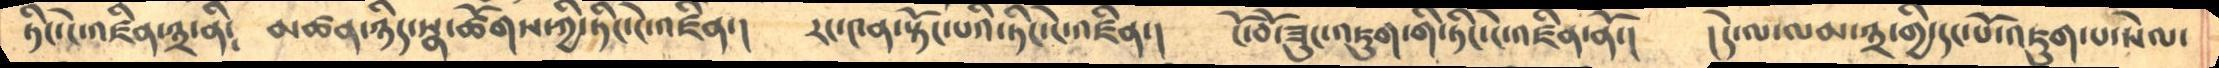ཏིང་ངེ་འཛིན་༣་ནི༴   མཚན་ཉིད་སྣ་ཚོགས་ཀྱི་ཏིང་ངེ་འཛིན་།    རང་༤ན་སྟོང་པའི་ཏིང་ངེ་འཛིན་།     ངོ་བོ་ཟུང་འཇུག་གི་ཏིང་ངེ་འཛིན་ནོ་།   །དེ་ལ་ལམ་༣་གྱི་དང་པོ་འཇུག་པ་སེལ་
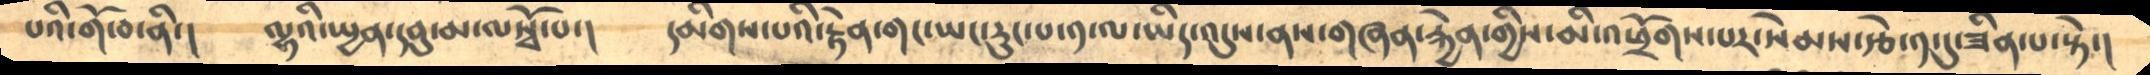པའི་གོ་བ་ནི་།    ལྷའི་སྤྱན་དབུ་མ་ལསྭོ་པ་།   དམིགས་པའི་རྟེན་གང་ཡང་རུང་པ་༡་ལ་ཡིད་འདུས་ནས་གཞན་རྐྱེན་གྱིས་མི་འཕྲོགས་པར་སེམས་རྩེ་༡་དུ་ཟིན་པ་སྟེ་།
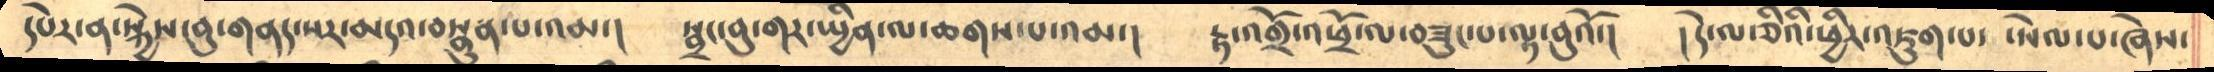དཔེར་ན་སྐྱེས་བུ་གནད་སར་མདའ་བསྣུན་པ་འམ་།   སྦྲང་བུ་གར་སྤྱིན་ལ་ཆགས་པའམ་།   རྟ་འགྲོ་འཕྲོ་ལ་བཟུང་པ་ལྟ་བུའོ་།    །དེ་ལ་ཅིའི་ཕྱིར་འཇུག་པ་  ་སེལ་པ་ཞེས་
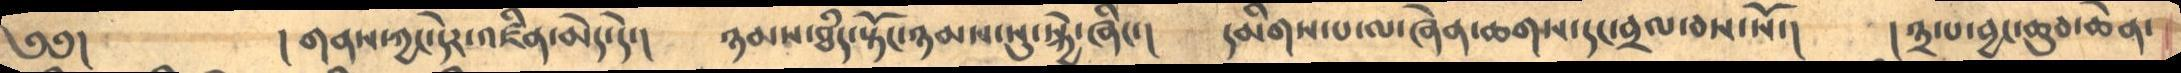༄༅།       ། གནས་ཀྱང་དེར་འཛིན་མེད་དེ་།    ཉམས་ཐཾད་སྟོང་ཉམས་སུ་སྐྱེ་ཞིང་།   དམིགས་པ་ལ་ཞེན་ཆགས་དང་བྲལ་བས་སོ་།   ། ༣་པ་བྱང་ཆུབ་ཆེན་
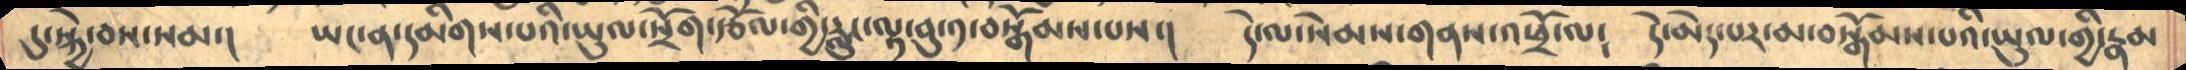དུ་སྐྱེ་བས་སམ་།   ཡང་ན་དམིགས་པའི་ཡུལ་སྲོག་རྩོལ་གྱི་རླུང་ལྟ་བུ་༡་བསྒོམས་པས་།    དེ་ལ་སེམས་གནས་འཕྲོ་ལ༴   དེ་མེད་པར་མ་བསྒོམས་པའི་ཡུལ་གྱི་རྣམ
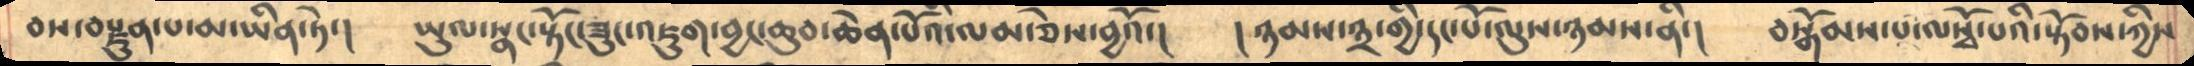བས་བརྫུན་པ་མ་ཡིན་ཏེ་།    ཡུལ་སྣང་སྟོང་ཟུང་འཇུག་བྱང་ཆུབ་ཆེན་པོའི་ལམ་ཅེས་བྱའོ་།     །ཉམས་༣་གྱི་དང་པོ་ལུས་ཉམས་ནི་།   བསྒོམས་པ་ལསྭོ་པའི་སྟོབས་ཀྱིས
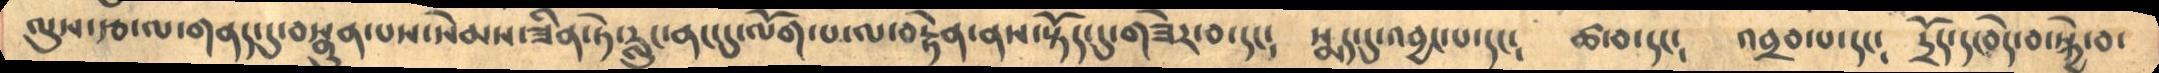ལུས་རྩ་ལ་གནད་དུ་བསྣུན་པས་སེམས་ཟིན་ཏེ་རླུང་ནང་དུ་ལོག་པ་ལ་བརྟེན་ནས་སྟོད་དུ་གཟེར་བ་དང༴    སྨད་དུ་འབྱང་པ་དང༴    ཚ་བ་དང༴    འབྲབ་པ་དང༴    དྲོད་དང་བདེ་བ་སྐྱེ་བ་
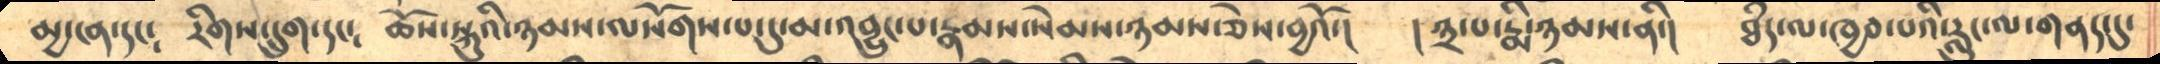མྱ་ངན་དང༴   རིགས་དྲུག་དང༴     ཆོས་སྐུའི་ཉམས་ལསོགས་པ་དུ་མ་འབྱུང་པ་རྣམས་སེམས་ཉམས་ཅེས་བྱའོ་།   ། ༣་པ་རྨི་ཉམས་ནི་།    ཐཾད་ལ་ཁྱབ་པའི་རླུང་ལ་གནད་དུ་
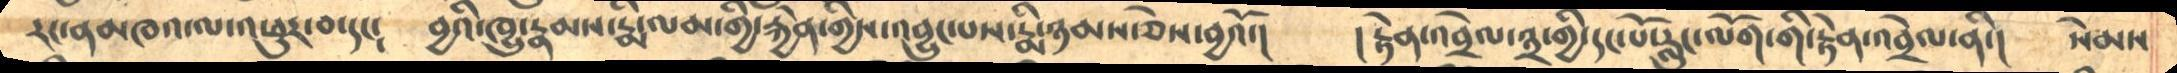རང་ནམཁའ་ལ་འཕུར་བ་དང༴   བྱའི་ཁྱུ་རྣམས་རྨི་ལམ་གྱི་རྐྱེན་གྱིས་འབྱུང་བས་རྨི་ཉམས་ཅེས་བྱའོ་།   །རྟེན་འབྲེལ་༣་གྱི་དང་པོ་རླུང་ལོག་གི་རྟེན་འབྲེལ་ནི་།   སེམས
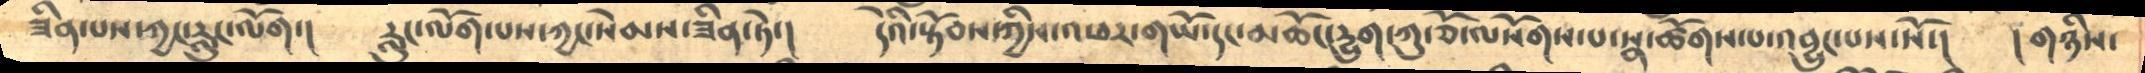ཟིན་པས་ཀྱང་རླུང་ལོག་།   རླུང་ལོག་པས་ཀྱང་སེམས་ཟིན་ཏེ་།    དེའི་སྟོབས་ཀྱིས་འཕར་གཡོ་དང་མཆོང་དྱུག་ཀུ་ཅོ་ལསོགས་པ་སྣ་ཚོགས་པ་འབྱུང་པས་སོ་།    །གཉིས་
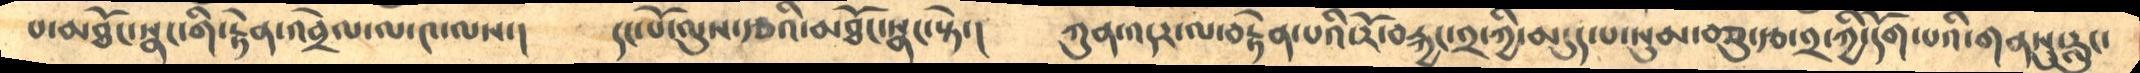བ་མཐོང་སྣང་གི་རྟེན་འབྲེལ་ལ་༤་ལས་།      དང་པོ་ལུས་རྩའི་མཐོང་སྣང་སྟེ་།      ཀུན་འདར་ལ་བརྟེན་པའི་རོ་བརྐྱང་༢་ཀྱི་མདུད་པ་སུམ་བཅུ་རྩ་༢་ཀྱི་དོག་པའི་གནསུ་རླུང་
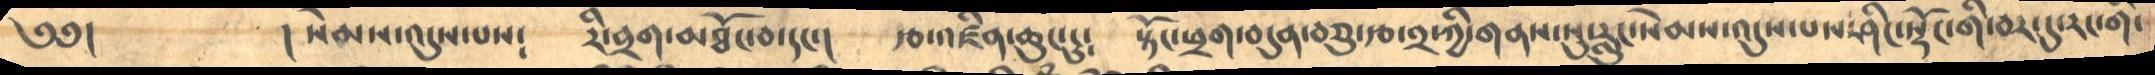༄༅།       ། སེམས་འདུས་པས༴     རི་བྲག་མཐོང་བ་དང་།      རྩ་འཛིན་ཆུང་ངུ༴      སྟོང་ཕྲག་བདུན་བཅུ་་རྩ་༢་ཀྱི་གནས་སུ་རླུང་སེམས་འདུས་པས་ཤིང་སྡོང་གི་བར་དུ་རང་གི་
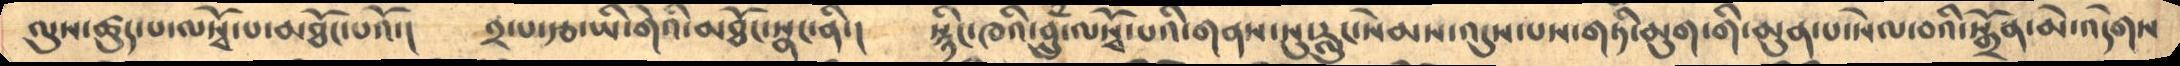ལུས་ཚུད་པ་ལསྭོ་པ་མཐོང་པའོ་།    ༢་པ་རྩ་ཡི་གེའི་མཐོང་སྣང་ནི་།   སྙིང་ཁའི་བླུཾ་ལསྭོ་པའི་གནས་སུ་རླུང་སེམས་འདུས་པས་གཏི་མུག་གི་མུན་པ་སེལ་བའི་སྐྲོན་མེ་འདེགས
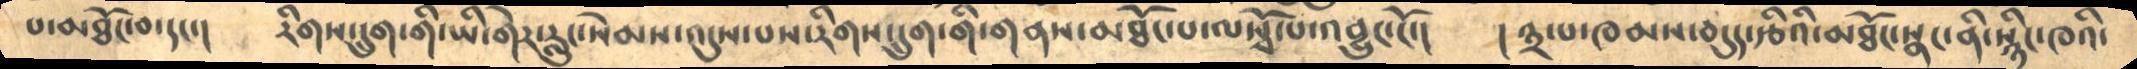པ་མཐོང་བ་དང་།      རིགས་དྲུག་གི་ཡི་གེར་རླུང་སེམས་འདུས་པས་རིགས་དྲུག་གི་གནས་མཐོང་པ་ལསྭོ་པ་འབྱུང་ངོ་།    ། ༣་པ་ཁམས་བདུད་རྩིའི་མཐོང་སྣང་ནི་སྙིང་ཁའི་
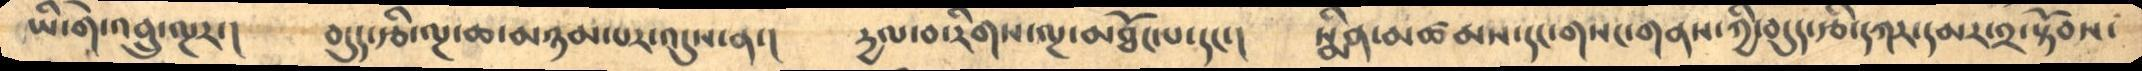ཡི་གེ་འབྲུ་ལྔར་།     བདུད་རྩི་ལྔ་ཆ་མཉམ་པར་འདུས་ན་།    དྱལ་བ་རིགས་ལྔ་མཐོང་པ་དང་།    སྨིན་མཚམས་དང་གསང་གནས་ཀྱི་བདུད་རྩི་དཀར་དམར་༢་སྟོབས་
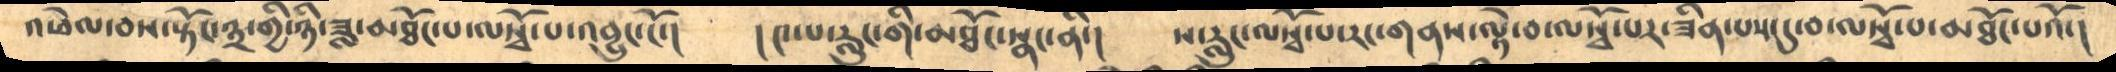འཕེལ་བས་སྟོང་༣་གྱི་ཉི་ཟླ་མཐོང་པ་ལསྭོ་པ་འབྱུང་ངོ་།    ། ༤་པ་རླུང་གི་མཐོང་སྣང་ནི་།      ས་རླུང་ལསྭོ་པ་རང་གནས་ལྟེ་བ་ལསྭོ་པར་ཟིན་པས་དུ་བ་ལསྭོ་པ་མཐོང་པའོ་།
